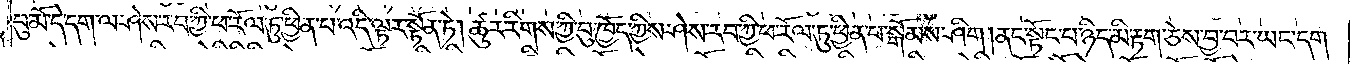བུ་མོ་དེ་དག་ལ་ཤེས་རབ་ཀྱི་ཕ་རོལ་ཏུ་ཕྱིན་པ་འདི་ལྟར་སྟོན་ཏེ། ཚུར་རིགས་ཀྱི་བུ་ཁྱོད་ཀྱིས་ཤེས་རབ་ཀྱི་ཕ་རོལ་ཏུ་ཕྱིན་པ་སྒོམས་ཤིག །ནང་སྟོང་པ་ཉིད་མི་རྟག་ཅེས་བྱ་བར་ཡང་དག་
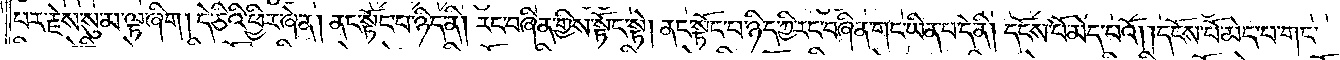པར་རྗེས་སུ་མ་ལྟ་ཞིག །དེ་ཅིའི་ཕྱིར་ཞེ་ན། ནང་སྟོང་པ་ཉིད་ནི། རང་བཞིན་གྱིས་སྟོང་སྟེ། ནང་སྟོང་པ་ཉིད་ཀྱི་རང་བཞིན་གང་ཡིན་པ་དེ་ནི། དངོས་པོ་མེད་པའོ། །དངོས་པོ་མེད་པ་གང་
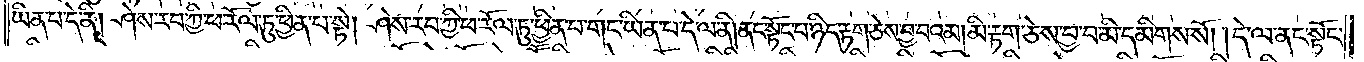ཡིན་པ་དེ་ནི། ཤེས་རབ་ཀྱི་ཕ་རོལ་ཏུ་ཕྱིན་པ་སྟེ། ཤེས་རབ་ཀྱི་ཕ་རོལ་ཏུ་ཕྱིན་པ་གང་ཡིན་པ་དེ་ལ་ནི། ནང་སྟོང་པ་ཉིད་རྟག་ཅེས་བྱ་བའམ། མི་རྟག་ཅེས་བྱ་བ་མི་དམིགས་སོ། །དེ་ལ་ནང་སྟོང་
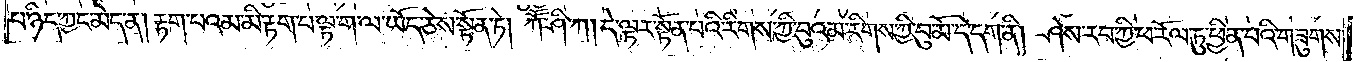པ་ཉིད་ཀྱང་མེད་ན། རྟག་པའམ་མི་རྟག་པ་ལྟ་ག་ལ་ཡོད་ཅེས་སྟོན་ཏེ། ཀཽ་ཤི་ཀ། དེ་ལྟར་སྟོན་པའི་རིགས་ཀྱི་བུའམ་རིགས་ཀྱི་བུ་མོ་དེ་དག་ནི། ཤེས་རབ་ཀྱི་ཕ་རོལ་ཏུ་ཕྱིན་པའི་གཟུགས་
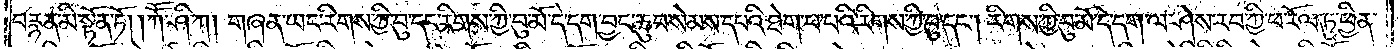བརྙན་མི་སྟོན་ཏོ། །ཀཽ་ཤི་ཀ། གཞན་ཡང་རིགས་ཀྱི་བུ་དང་རིགས་ཀྱི་བུ་མོ་དེ་དག་བྱང་ཆུབ་སེམས་དཔའི་ཐེག་པ་པའི་རིགས་ཀྱི་བུ་དང༌། རིགས་ཀྱི་བུ་མོ་དེ་དག་ལ་ཤེས་རབ་ཀྱི་ཕ་རོལ་ཏུ་ཕྱིན་
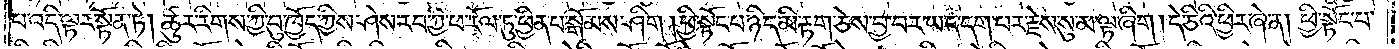པ་འདི་ལྟར་སྟོན་ཏེ། ཚུར་རིགས་ཀྱི་བུ་ཁྱོད་ཀྱིས་ཤེས་རབ་ཀྱི་ཕ་རོལ་ཏུ་ཕྱིན་པ་སྒོམས་ཤིག །ཕྱེ་སྟོང་པ་ཉིད་མི་རྟག་ཅེས་བྱ་བར་ཡང་དག་པར་རྗེས་སུ་མ་ལྟ་ཞིག །དེ་ཅིའི་ཕྱིར་ཞེ་ན། ཕྱི་སྟོང་པ་
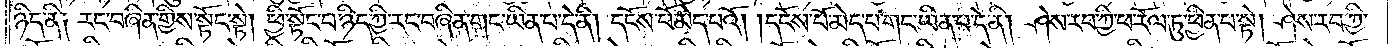ཉིད་ནི༑ རང་བཞིན་གྱིས་སྟོང་སྟེ། ཕྱི་སྟོང་པ་ཉིད་ཀྱི་རང་བཞིན་གང་ཡིན་པ་དེ་ནི། དངོས་པོ་མེད་པའོ། །དངོས་པོ་མེད་པ་གང་ཡིན་པ་དེ་ནི། ཤེས་རབ་ཀྱི་ཕ་རོལ་ཏུ་ཕྱིན་པ་སྟེ། ཤེས་རབ་ཀྱི་
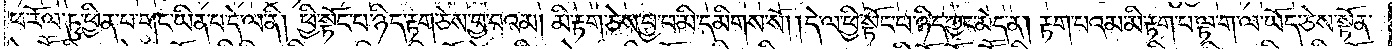ཕ་རོལ་ཏུ་ཕྱིན་པ་གང་ཡིན་པ་དེ་ལ་ནི། ཕྱི་སྟོང་པ་ཉིད་རྟག་ཅེས་བྱ་བའམ། མི་རྟག་ཅེས་བྱ་བ་མི་དམིགས་སོ། དེ་ལ་ཕྱི་སྟོང་པ་ཉིད་ཀྱང་མེད་ན། རྟག་པའམ་མི་རྟག་པ་ལྟ་ག་ལ་ཡོད་ཅེས་སྟོན་
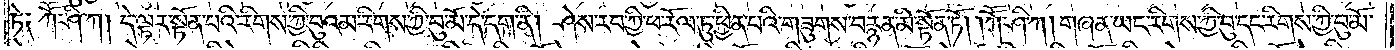ཏེ༑ ཀཽ་ཤི་ཀ། དེ་ལྟར་སྟོན་པའི་རིགས་ཀྱི་བུའམ་རིགས་ཀྱི་བུ་མོ་དེ་དག་ནི། ཤེས་རབ་ཀྱི་ཕ་རོལ་ཏུ་ཕྱིན་པའི་གཟུགས་བརྙན་མི་སྟོན་ཏོ། །ཀཽ་ཤི་ཀ། གཞན་ཡང་རིགས་ཀྱི་བུ་དང་རིགས་ཀྱི་བུ་མོ་
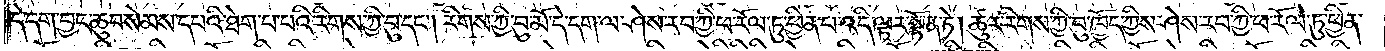དེ་དག་བྱང་ཆུབ་སེམས་དཔའི་ཐེག་པ་པའི་རིགས་ཀྱི་བུ་དང༌། རིགས་ཀྱི་བུ་མོ་དེ་དག་ལ་ཤེས་རབ་ཀྱི་ཕ་རོལ་ཏུ་ཕྱིན་པ་འདི་ལྟར་སྟོན་ཏེ། ཚུར་རིགས་ཀྱི་བུ་ཁྱོད་ཀྱིས་ཤེས་རབ་ཀྱི་ཕ་རོལ་ཏུ་ཕྱིན་
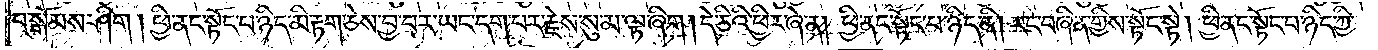པ་སྒོམས་ཤིག །ཕྱི་ནང་སྟོང་པ་ཉིད་མི་རྟག་ཅེས་བྱ་བར་ཡང་དག་པར་རྗེས་སུ་མ་ལྟ་ཞིག། དེ་ཅིའི་ཕྱིར་ཞེ་ན། ཕྱི་ནང་སྟོང་པ་ཉིད་ནི། རང་བཞིན་གྱིས་སྟོང་སྟེ། ཕྱི་ནང་སྟོང་པ་ཉིད་ཀྱི་
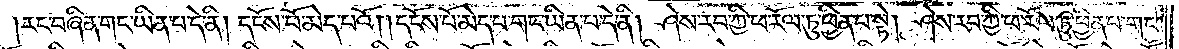རང་བཞིན་གང་ཡིན་པ་དེ་ནི། དངོས་པོ་མེད་པའོ། །དངོས་པོ་མེད་པ་གང་ཡིན་པ་དེ་ནི། ཤེས་རབ་ཀྱི་ཕ་རོལ་ཏུ་ཕྱིན་པ་སྟེ། ཤེས་རབ་ཀྱི་ཕ་རོལ་ཏུ་ཕྱིན་པ་གང་
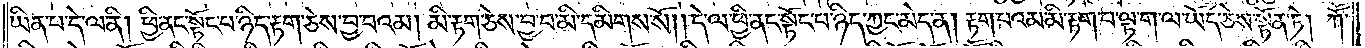ཡིན་པ་དེ་ལ་ནི། ཕྱི་ནང་སྟོང་པ་ཉིད་རྟག་ཅེས་བྱ་བའམ། མི་རྟག་ཅེས་བྱ་བ་མི་དམིགས་སོ། །དེ་ལ་ཕྱི་ནང་སྟོང་པ་ཉིད་ཀྱང་མེད་ན། རྟག་པའམ་མི་རྟག་པ་ལྟ་ག་ལ་ཡོད་ཅེས་སྟོན་ཏེ། ཀཽ་
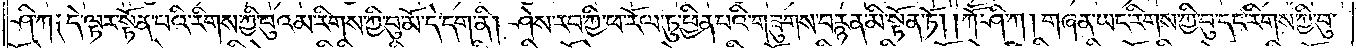ཤི་ཀ༑ དེ་ལྟར་སྟོན་པའི་རིགས་ཀྱི་བུའམ་རིགས་ཀྱི་བུ་མོ་དེ་དག་ནི། ཤེས་རབ་ཀྱི་ཕ་རོལ་ཏུ་ཕྱིན་པའི་གཟུགས་བརྙན་མི་སྟོན་ཏོ། །ཀཽ་ཤི་ཀ། གཞན་ཡང་རིགས་ཀྱི་བུ་དང་རིགས་ཀྱི་བུ་
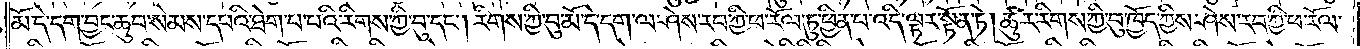མོ་དེ་དག་བྱང་ཆུབ་སེམས་དཔའི་ཐེག་པ་པའི་རིགས་ཀྱི་བུ་དང༌། རིགས་ཀྱི་བུ་མོ་དེ་དག་ལ་ཤེས་རབ་ཀྱི་ཕ་རོལ་ཏུ་ཕྱིན་པ་འདི་ལྟར་སྟོན་ཏེ། ཚུར་རིགས་ཀྱི་བུ་ཁྱོད་ཀྱིས་ཤེས་རབ་ཀྱི་ཕ་རོལ་
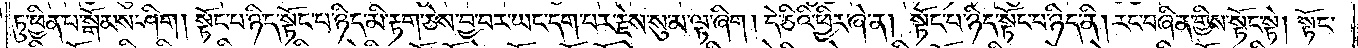ཏུ་ཕྱིན་པ་སྒོམས་ཤིག །སྟོང་པ་ཉིད་སྟོང་པ་ཉིད་མི་རྟག་ཅེས་བྱ་བར་ཡང་དག་པར་རྗེས་སུ་མ་ལྟ་ཞིག །དེ་ཅིའི་ཕྱིར་ཞེ་ན། སྟོང་པ་ཉིད་སྟོང་པ་ཉིད་ནི། རང་བཞིན་གྱིས་སྟོང་སྟེ། སྟོང་
